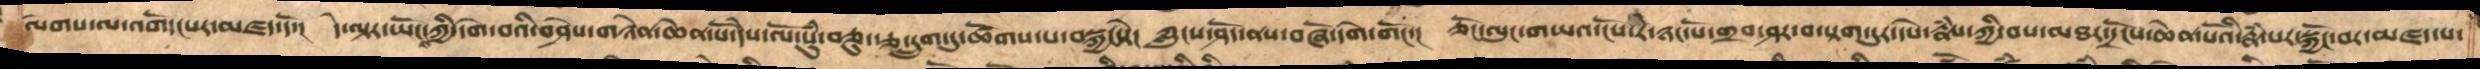ལེགས་ལ་འགོདངཔར་མཛད་དོ་།  དེ་ལྟར་ཡོངས་ཀྱི་དགེ་བའི་བཤེས་གཉེན་ཆེན་པོ་དེས་ལོ་སུཾ་བཅུ་རྩ་དྲུག་དུ་ཚོགས་པ་བསྐྱངསྟེ།  ཀླུངས་ཤོད་ནས་བཞོ་དགེ་གོང་། ཅོང་ལུང་གཡའ་ངོས་རི་ཉང་པོ་གྲབ་ཤར་བ་སྟག་དུར་དཔེ་རྣཾས་ཀྱི་བས་མཐར་དྲོངས་ཆེན་པོའི་རྣཾ་པར་སྐྱོང་བར་མཛད་པ་
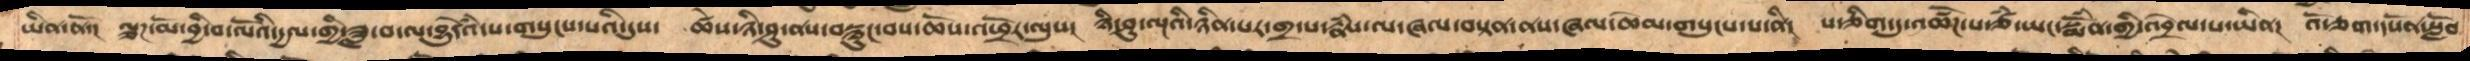ཡིན་ནོ།  ལྕཌ་མོ་བྱི་བ་ལོའི་དྱལ་གྱི་ཟླ་བ་ལ་བྱུདེཾའ་པ་གསུངས་པའི་དུས།  ཚེས་ཉི་ཤུ་ནས་བསྙུང་བས་ཆོས་འཕྲོར་ལུས།  ཉི་ཤུ་ལྔའི་ཉིན་པར་གྲ་པ་རྣཾས་ལ་ཞལ་བསྟན་ནས་ཞལ་ཆེམ་གསུངས་པ་ནི།  ས་ཅིག་ཏུ་འཚོཌ་པ་ཙཾ་ཡང་སྨོཾན་གྱི་འབྲེལ་པ་ཡིན།  འོ་ཅག་དཔོན་སློབ
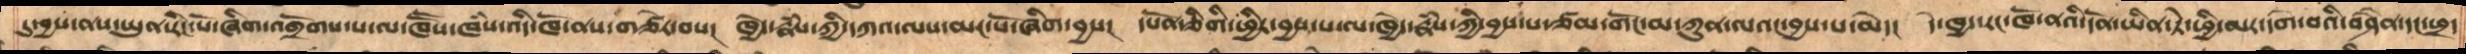དུ་བྱས་ནས་ཡུན་རིང་པོ་ཞིག་འགྲོགས་པ་ལ་ཁཽས་ཁཾས་འདི་ཁོ་ནས་གཙེར་བས། ཁྱེད་རྣཾས་ཀྱི་དཀའ་ལས་མང་པོ་ཞིག་བྱས། དཔོན་ཅིགི་ཕྱིར་བྱས་པ་ལ་ཁྱེད་རྣཾས་ཀྱི་བྱས་པ་ཙམ་གོང་མ་ཀུན་ལའང་བྱས་པ་མེད། དེ་ཁྱེད་རང་ཁོ་ནའི་དོན་ཡིན་ཏེ་ཕྱི་མར་དགེ་བའི་བཤཻན་དང་ཕྲད་
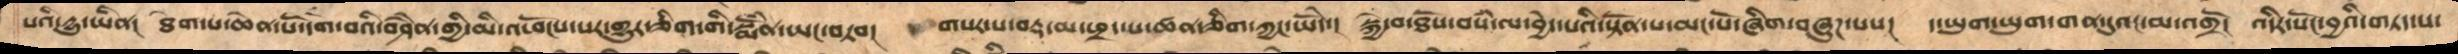པའི་དྱུ་ཡིན། ཐེག་པ་ཆེན་པོ་དགེ་བའི་བཤཻན་གྱི་མི་འཕོངས་པར་གྱུར་ཅིག་གི་སྨོཾན་ཡང་བཏབ།  གསར་པ་བརྡ་མ་ཕྲད་པ་ཚན་ཅིག་ཀྱང་ཡོདེ། སྐྱེ་བ་ཐོས་བསཾ་ལ་བྱེད་པའི་སྟོན་པ་མང་པོ་ཞིག་བཞུཌ་པས། ད་ཡུག་ཡུག་གན་དུའང་མ་འགྲོ། འདིར་སོང་བྱའི་གཏད་ས་
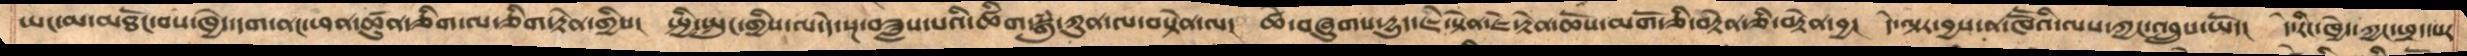ཡང་མ་མཐོང་བས་ཁྱེད་དག་ནང་ཕན་ཚུན་ཅིག་ལ་ཅིག་རྟེན་གྱིས། སྤྱི་སྤུང་གྱིས་ལ་དེ་སྔ་བཟླས་པའི་ཚིག་སྒུཾ་ལ་བསྟེན་ལ། ཚེ་བཞུགས་དྱུད་ཇི་རྟེན་ཇེ་རྟེན་ཆོས་མགོ་ཅི་བརྟེན་ཅི་བརྟེན་བྱ། དེ་ལྟར་བྱས་ན་ཁཽའི་ལས་ཀྱང་འབྲུས་ཡོད། དེ་རིང་ཁྱེད་ཀྱང་ཕྲད་པར
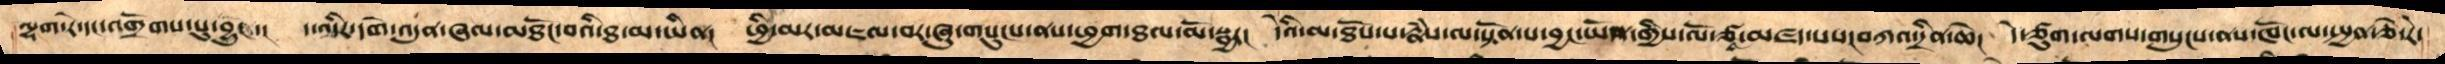ལྷག་རེ་དང་འགྲོགས་སུ་བྱུང་།  ད་འདིར་དགེ་འདུན་ཞལ་མཐོང་བའི་ཐ་མ་ཡིན། ཕྱི་མར་མཇལ་བར་ཞུ་གསུངས་ནས་ཕྱག་ཐལ་མོ་སྦྱར། དེའི་མ་ཐོས་པ་རྣཾས་ལ་སྟོན་པ་བྱང་ཡོན་གྱིས་ལོཙཱ་མཛད་པས་བཀའ་དྲིན་ཆེ།  དེ་ཙུག་ལགས་གསུངས་ནས་ཁོང་ལ་སྤྱན་ཅེ་རེ་
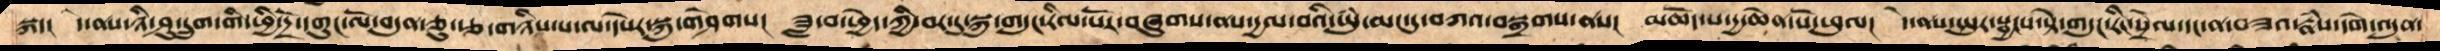སྐད། དེ་ནས་ཉི་ཤུ་དྲུག་གི་ཕྱི་དྲོ་དགུང་ལོ་བདུན་ཅུ་རྩ་གཉིས་པ་ལ་དཔེར་སྐུ་གཤེགས།  ཟླ་བ་ཕྱེད་ཀྱི་བར་དུ་སྐུ་གདུང་རིལ་པོར་བཞུགས་ནས་དྱལ་བའི་ཡུཾ་མང་དུ་བཀའ་བསྒྲགས་ནས།  མཆོད་པ་དྱ་ཆེན་པོ་ཕུལ། དེ་ནས་སྤུར་སྦྱངས་ཏེ་གདུང་དང་རིང་སྲེལ་དང་ན་བཟའ་རྣཾས་དགེ་འདུན་
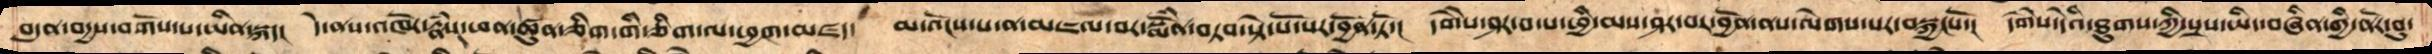བདུན་བདྱས་བགོས་པ་ཡིན་སྐད། དེ་ནས་འཁོར་རྣཾས་ཕན་ཚུན་ཅིག་གི་ཅིག་ལ་ཕྱག་མཛད། མ་འོངས་པ་ན་མཇལ་བར་སྨོཾན་བཏབ་སྟེ་སོ་སོར་བྱོན་ཏོ། དགཻས་ཤར་བ་པ་ཕྱི་མས་ཤར་བར་བྱོན་ནས་ལེགས་པར་བསྐྱངསོ། དགཻས་དེའི་ཐུགས་ཀྱི་སྲས་ཡིད་བཞིན་གྱི་ནོར་བུ་
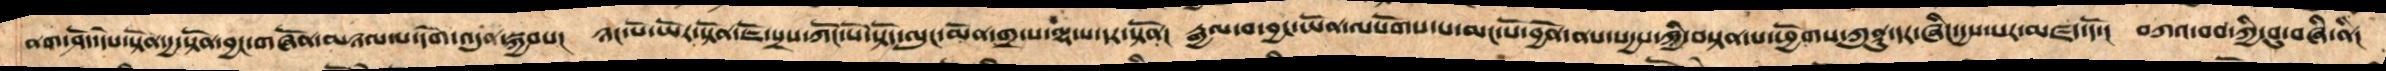ནགས་ཤོད་དཔེ་སྟོན་དྱ་སྟོན་བྱང་གཞོན་མཉལ་པ་དགེ་འདུན་སྐྱབས། ཉང་པོ་ཡོར་སྟོན་ཇོ་སྲས་ཀོང་པོ་སྟོད་ལུང་མོན་གྲ་པ་ལྷ་པ་དར་སྟོན། རྒྱལ་བ་བྱང་ཡོན་ལསོགས་པ་མང་པོ་བྱོན་ནས་སདྱས་ཀྱི་བསྟན་པ་ཕྱོགས་ཀུནྟུ་དར་ཞིང་དྱས་པར་མཛད་དོ། བཀའ་བབ་ཀྱི་བུ་བཞི་ནི།
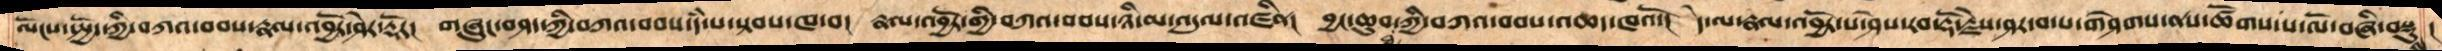ལོངས་སྤྱོད་ཀྱི་བཀའ་བབས་རྣལ་འབྱོར་ཤེར་རྡོར།  གཞུང་བཤད་ཀྱི་བཀའ་བབས་དཾ་པ་སྟབས་ཁ་བ། རྣལ་འབྱོར་གྱི་བཀའ་བབས་ཉི་མ་འདུལ་འཛིན།  བྱང་ཆུབ་ཀྱི་བཀའ་བབས་འཆད་ཁའོ་།  དེ་ལ་རྣལ་འབྱོར་པ་ཤེས་རབ་རྡོ་རྗེས་ཤར་བ་པ་གཤེགས་ནས་ཚོགས་པ་ལོ་བཞི་བསྡུས།
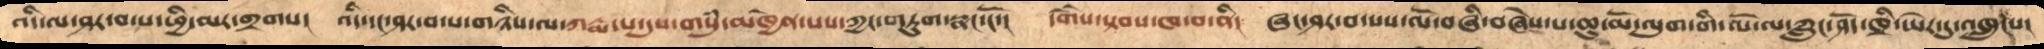འདི་ལ་ཤར་བ་པ་ཕྱི་མར་གྲགས།  འདི་དང་ཤར་བ་པ་གཉིས་ལ་ཀརྨ་པ་དུས་གསུཾ་མཁྱེན་པས་ཀྱང་གཏུག་སྣང་ངོ་།  དགཻས་སྟབས་ཁ་བ་ནི། ཞང་ཤར་བ་པས་ལོ་བཞི་བཞེས་པ་ཆུ་མོ་ལུག་གི་ལོ་ལ་ཀླུང་ཤོད་ཁྲི་ཡེར་དུ་འཁྲུངས།
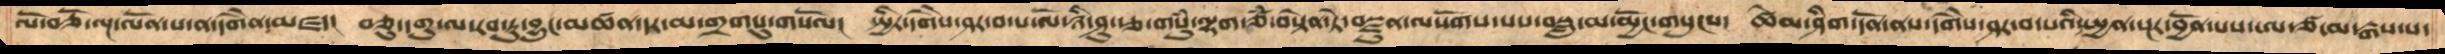ལོ་བཅོ་ལྔ་ལོན་པ་ན་དགཻན་མཛད།  བཅུ་དགུ་ལ་རབ་ཏུ་བྱུང་མཚན་དར་མ་གྲགསུ་གསོལ།  སྤྱིར་དགཻས་ཤར་བ་པ་ལོ་ཉི་ཤུ་རྩ་གསུཾ་ལྷག་ཙཾ་བསྟེན་ཏེ་བསྫུན་ལསོགས་པས་བསླུ་མ་མྱོང་གསུངས།  ཚེམ་ཤིག་དོན་ནས་དགེཻས་ཤར་བ་པའི་སྤྱན་སྔར་བྱོན་པས་ཨ་ཙ་མ་རྒས་པ་
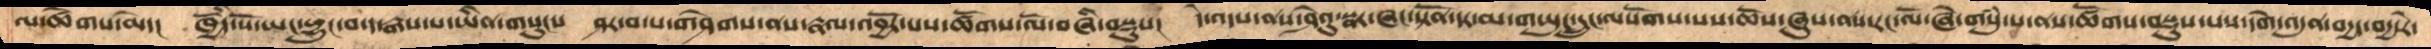ལ་ཚེགས་མེད།  ཁྱོདི་སོ་ཡང་ཕྱུང་བ་ད་རྒས་པ་ཡིན་གསུངས།  ཤར་བ་པ་གཤེགས་ནས་རྣལ་འབྱོར་པས་ཚོགས་ལོ་བཞི་བསྡུས།  དེ་འདས་ནས་ཤེའུ་སྣར་ཞང་སྟོན་དར་མ་གཡུང་དྲུང་ལསོགས་པས་ཆོས་ཞུས་ནས་རང་ལོ་ཞེ་གསུཾ་པ་ནས་ཚོགས་བསྡུས་པས་དགེ་འདུན་བདྱད་བདྱ་རེ་
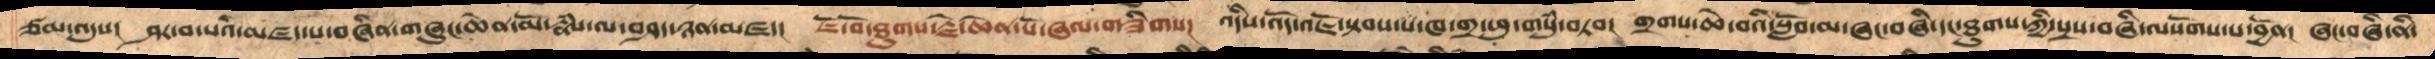ཙམ་འདུས།   ཤར་བ་པའི་མཛད་པ་བཞིན་གཞུང་ཆེན་མོ་རྣཾས་ལ་བཤད་ཉན་མཛད།  ཇོ་བོ་ཐུགས་རྗེ་ཆེན་པོ་ཞལ་གཟིགས།  འདིས་འོད་འཇོ་སྟབས་པ་ཁ་གྲ་ཕུ་གསུཾ་བཏབ།  གྲགས་ཆེ་བའི་སློབ་མ་ཞང་བཞི་དང་ཐུགས་ཀྱི་སྲས་བཞི་ལསོགས་པ་བྱོན།  ཞང་བཞི་ནི་
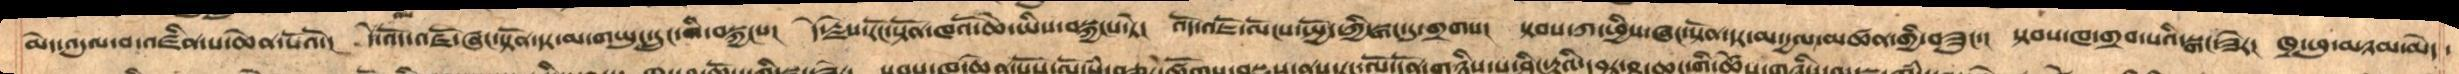མེད་འདུལ་བ་འཛིན་པ་ཆེན་པོའོ་།  དེ་འོང་འཛོ་ཞང་སྟོན་དར་མ་གཡུང་དྲུང་གི་བསྐྱངས།  དེ་རྗེས་རོང་སྟོན་ཁོའ་ཆེ་ཡིས་བསྐྱངས་ཏེ།  འོད་འཇོ་ལོངས་སྤྱོད་ཀྱི་སྒང་དུ་གྲགས།  སྟབས་ཀ་ཕྱིས་ཞང་སྟོན་དར་མ་དྱལ་མཚན་གྱི་བཟུང་།  སྟབས་ཁ་གྲབ་པའི་སྒང་ཟེར།  ཁྲ་ཕུ་མཉམ་མེད་
